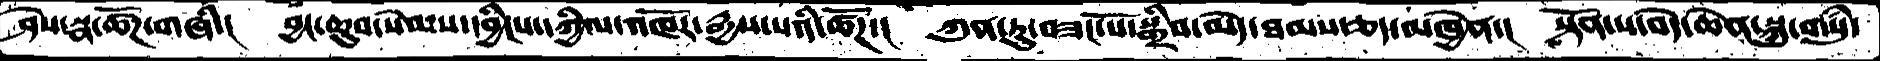ཤེས་སྣ་ཚོཌ་གཞི་།   བྱང་ཆུབ་སེམས་དབྱིངས་དཀྱིལ་འཁོར་རྒྱས་པའི་ཚོཌ་།  ཀུན་ཏུ་བཟང་པོ་སྒྲིབ་མེད་ཐམས་ཅད་མཁྱེན་།  སྟོན་པ་བདེ་ཆེན་སྐུ་གསུཾ་
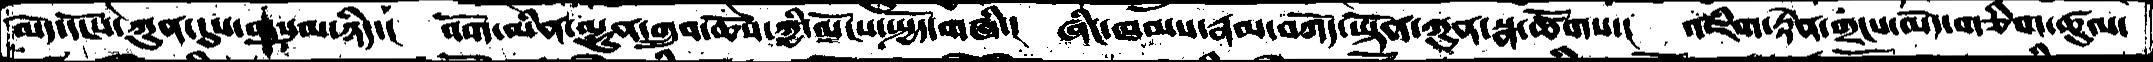མེད་དངོས་ཀུན་དུས་གསུམ་ཉིད་།   འོག་མིན་ལྷུན་གྲུབ་ཆོས་ཀྱི་ལོངས་སྤྱོད་གཞི་།  ཞིང་ཁམས་རྣམ་བཀོད་ཡྟོན་ཀུན་སྣ་ཚོགས་།  འཇིག་རྟེན་གྲངས་མེད་གཅིག་ཚུལ་
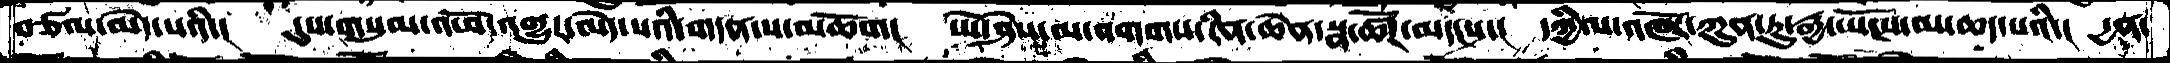བཙལ་མེད་པའི་།   དུས་གསུམ་འཕོ་འགྱུར་མེད་པའི་གདན་ས་མཆོག།  ཡེ་ཤེས་མ་འགགས་རིན་ཆེན་སྣ་ཚོཌ་མདངས་།   དཀྱིལ་འཁོར་ཀུན་ཏུ་རྒྱ་ཡོངས་མ་ཆད་པའི་།  དྱན་
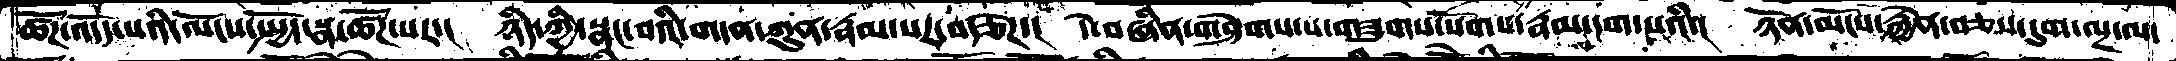ཚོཌ་འདོད་པའི་ལོངས་སྤྱོད་སྣ་ཚོཌ་པར་།   ཉིད་ཀྱི་སྣང་བའི་གདན་ཀུན་རྣམ་པར་བརྩེཌ་།  དེ་བཞིན་གཤེགས་པ་གཟུགས་སོགས་རྣམ་དག་པའི་།  ཉོན་མོངས་རྐྱེན་བཅས་དུག་ལྔ་ལ་
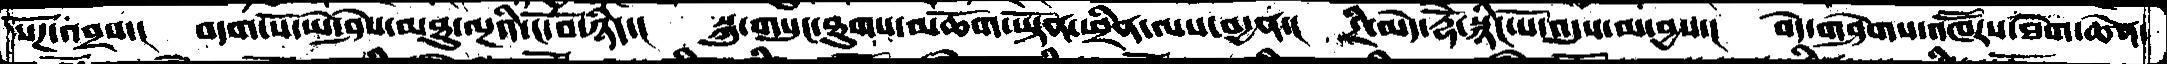སོཌ་འབྲས་།  བདག་པོ་ཡེ་ཤེས་མཐུ་ལྔའི་ངོ་བོ་ཉིད་།  སྐུ་གསུང་ཐུགས་མཆོག་ཡྟོན་ཕྲིན་ལས་བདྱན་།  དྲི་མེད་རྡོེ་སྙིང་པོ་འདུས་མ་བྱས་།  བདེ་གཤེགས་འཁཽརས་ཐེག་ཆེན་
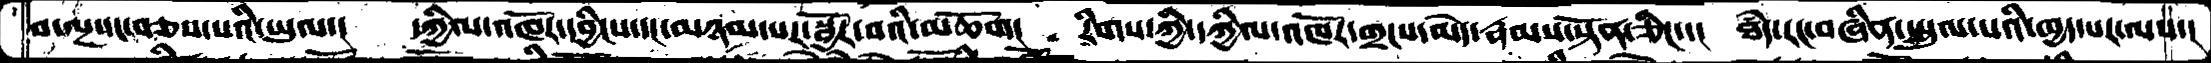བ་ལྔ་དང་བཅས་པའི་ཡུལ་།  དཀྱིལ་འཁོར་དབྱིངས་དང་མཉམ་པར་སྦྱོར་བའི་མཆོག།  རིགས་ཀྱི་དཀྱིལ་འཁོར་གྲངས་མེད་རྣམས་སྟོན་ཅིང་་།  ཐཾད་རང་བཞིན་སྤྲུལ་པའི་ཁྱད་པར་ལས་།
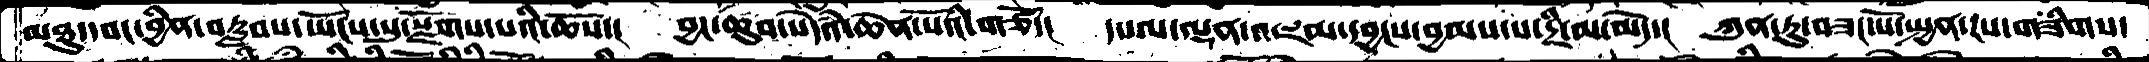མཐུ་དབང་བྱིན་བརླབས་ཡོངས་སུ་སྫོགས་པའི་ཆོས་།  བྱང་ཆུབ་སེདཾའ་ཆེན་པོའི་གཙོ་།   དཔལ་ལྡན་འཇམ་དབྱངས་བྱམས་པ་དྲི་མ་མེད་།  ཀུན་ཏུ་བཟང་པོ་སྤྱན་རས་གཟིགས་
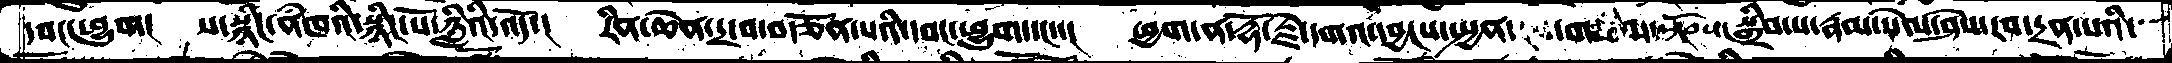དབང་ཕྱུག།  ས་སྙིང་ནཾཁའི་སྙིང་པོ་ཉི་ཟླའི་འོད་།  རིན་ཆེན་དྲ་བ་བརྩོན་པའི་དབང་ཕྱུག་དང་་།  ཕྱག་ན་རྡོ་རྗེ་དགའ་དབྱངས་སྤྱན་གཅིག་སྟོབས་།   སྒྲིབ་པ་རྣམ་སེལ་ཤེས་རབ་དྲན་པའི་
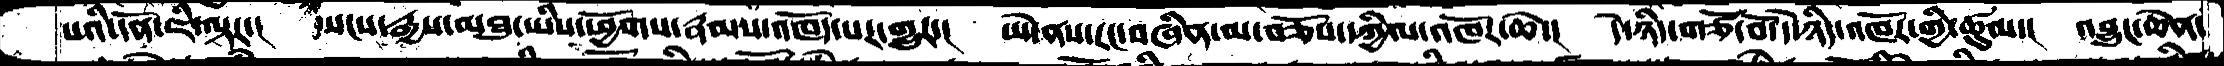པའི་དོན་ཇི་ལྟར་།  སངས་རྒྱས་མཐུ་ཡིས་ཕྱོགས་རྣམས་འཁོད་པར་གྱུར་།  ཡེ་ནས་རང་བཞིན་མ་བཅོས་དཀྱིལ་འཁོར་ཆེ་།  དེ་ཉིད་གཙོ་བོ་དེ་ཉིད་འཁོར་གྱི་ཚུལ་།  འབྱུང་ཆེན་
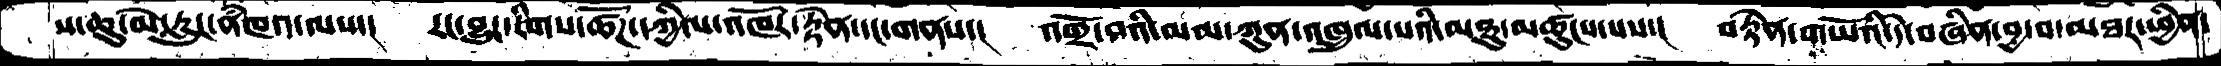ས་ཆུ་མེ་རླུང་ནཾཁའ་ལས་།  རང་བྱུང་རིགས་ཚོཌ་དཀྱིལ་འཁོར་རྟེན་དང་གནས་།  འགྲོ་བའི་ལམ་ཀུན་འཁྲུལ་པའི་མཐུ་མཚུངས་པས་།  བརྟེན་གཡོའི་དེ་བཞིན་བྱ་བ་མཐར་ཕྱིན་
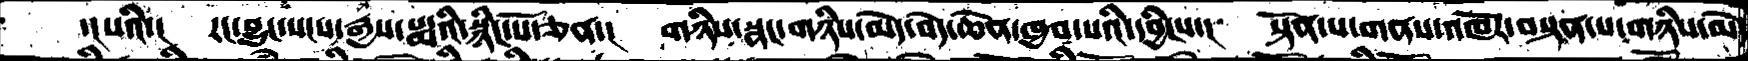་།པའི་།  རང་བྱུང་སངས་རྒྱས་པདྨའི་སྙིང་པོ་ཅན་།  གཉིས་སྣང་གཉིས་མེད་བདེ་ཆེན་ཁྱབ་པའི་དབྱིངས་།  སྟོན་པ་གནས་འཁོར་བསྟན་པ་གཉིས་མེད
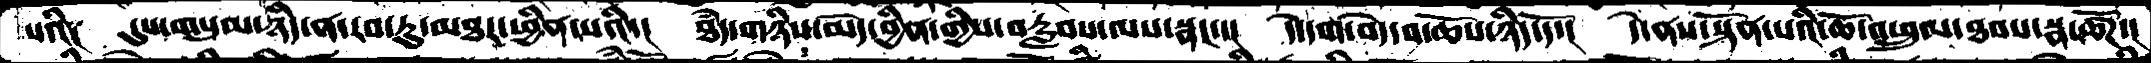པའི༑  དུས་གསུམ་ཉིད་ན་རབ་ཏུ་མཐར་ཕྱིན་པའི་།  ཐདཾ་གཉིས་མེད་བྱིན་གྱིས་བརླབས་ལས་སྣང་་།  དེ་དག་བདེ་བ་ཆོས་ཉིད་དོ་།  དེ་ནས་སྟོན་པའི་ཆོ་འཕྲུལ་ཐབས་སྣ་ཚོཌ་།
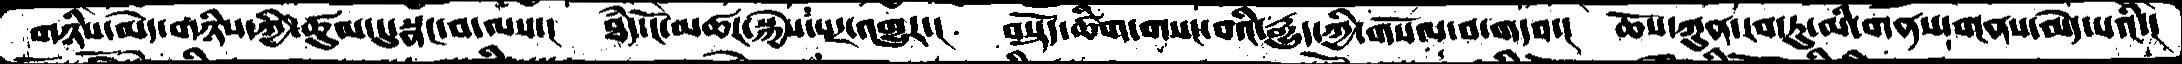གཉིས་མེད་གཉིས་ཀྱི་ཚུལ་དུ་སྣང་བ་ལས་།  ཐདཾ་ངོ་མཚར་སྐྱེས་པར་འགྱུར་།  བསྟོད་ཚིག་གསང་བའི་རྒྱུད་ཀྱི་གསོལ་བ་གདབ་།  ཆོས་ཀུན་རབ་ཏུ་མི་གནས་གནས་མེད་པའི་།
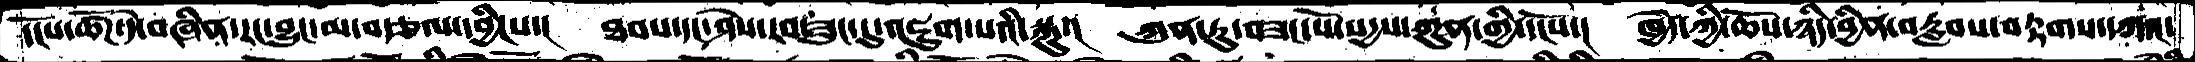དངོས་ཚོཌ་དེ་བཞིན་རང་བྱུང་མ་བརྩལ་དབྱིངས་།  ཐབས་དང་ཤེས་རབ་ཟུང་དུ་འཇུག་པའི་སྐུ་།  ཀུན་ཏུ་བཟང་པོ་སདྱས་ཀུན་གྱི་དངོས་།  ཁྱེད་ཀྱི་ཆོས་ཉིད་བྱིན་བརླབས་བརྟགས་དཀའ་
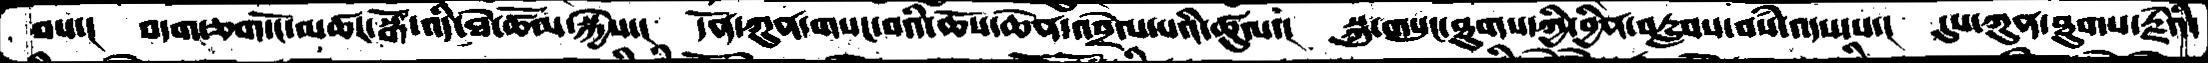བས་།  བདག་ཅག་ངོ་མཚར་སྒོ་འདི་ཐེ་ཚོམ་སྐྱེས་།   དོན་ཀུན་གསང་བའི་ཆོས་ཆེན་འབྲེལ་པའི་ཚུལ་།  སྐུ་གསུང་ཐུགས་ཀྱི་བྱིན་བརླབས་བསཾ་འདས་པ་།  དུས་ཀུན་ཐུགས་རྗེའི་
